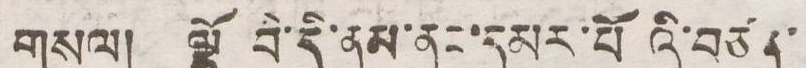གསལ། ལྷོ བི་དི་ནམ་ནང་དམར་པོའི་བཙན་
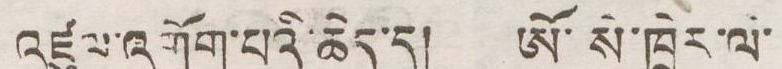འཛུལ་འགོག་པའི་ཆེད་དུ། ཨོ་སེ་ཁྲེར་ལེ་
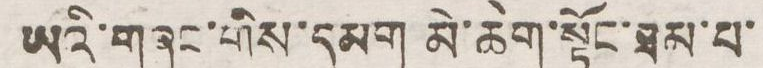ཡའི་གཞུང་གིས་དམག མེ་ཆེག་སྟོང་ཐམ་པ་
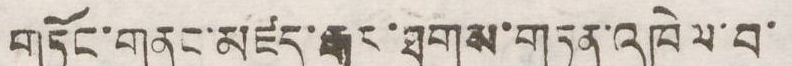གཏོང་གནང་མཛད་རྒྱུར་ཐུགས་གཏན་འཁེལ་བ་
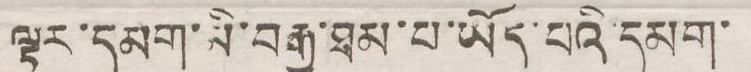ལྟར་དམག་མི་བརྒྱ་ཐམ་པ་ཡོད་པའི་དམག་
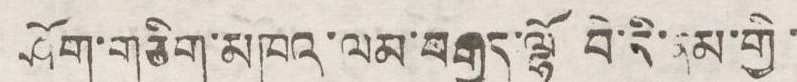ཤོག་གཅིག་མཁའ་ལམ་བརྒྱུད་ལྷོ བེ་དི་ནམ་གྱི་
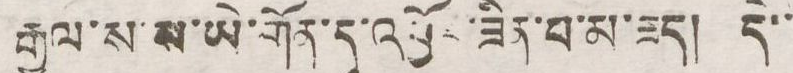རྒྱལ་ས་ས་སེ་གོན་དུ་འབྱོར་ཟིན་པ་མ་ཟད། དེ་་
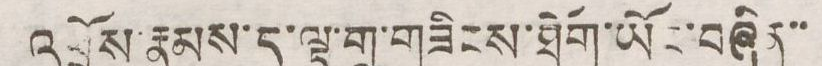འཕྲོས་རྣམས་ད་ལྟ་གྲུ་གཟིངས་ཐོག་ཡོང་བཞིན་་
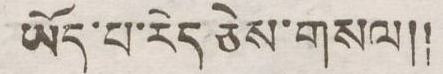ཡོད་པ་རེད ཅེས་གསལ།།
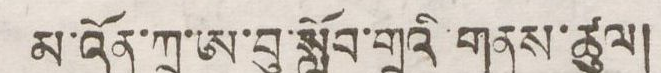མ་འོན་ཀྲ་ཨ་བུ་སློབ་གྲའི་གནས་ཚུལ།
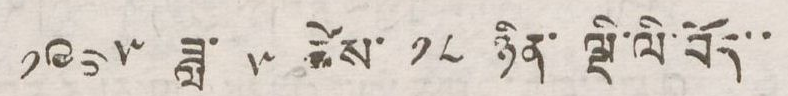༡༩༦༥ ཟླ་ ༥ ཚེས་ ༡༨ ཉིན་ ལྡི་ལི་བོད་་
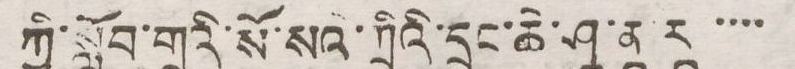ཀྱི་སློབ་གྲྭའི་སོ་སའི་ཀྲིའི་དྲུང་ཆེ་ཤཱ་ནཱ་རཱ་་་་
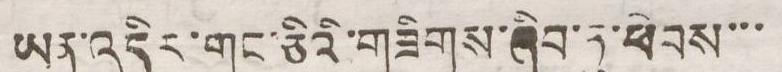ཡན་འདིར་གང་ཅིའི་གཟིགས་ཞིབ་ཏུ་ཕེབས་་་
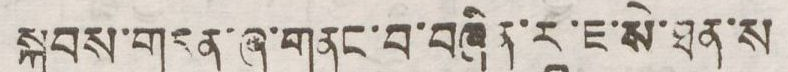སྐབས་གདན་ཞུ་གནང་བ་བཞིན་རཱ་ཇ་སེ་ཐན་ས
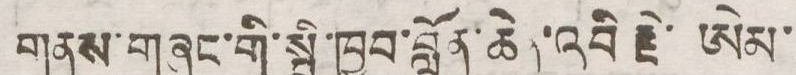གནས་གཞུང་གི་སྤྱི་ཁྱབ་བློན་ཆེན་འབི རྗེ་ཨེམ་
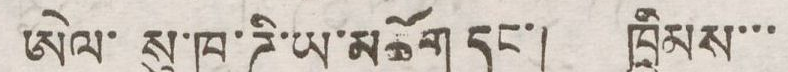ཨེལ་ སུ་ཁཱ་ཌི་ཡ་མཆོག དང་། ཁྲིམས་་་
